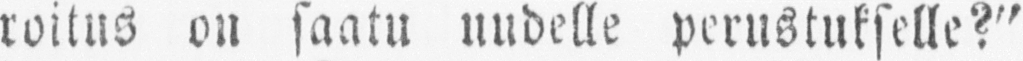roitus on saatu uudelle perustukselle?"
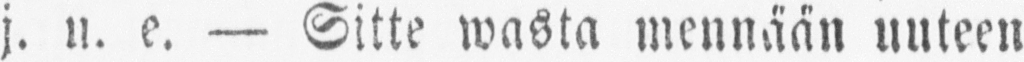j. n. e. — Sitte wasta mennään uuteen
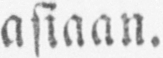asiaan.
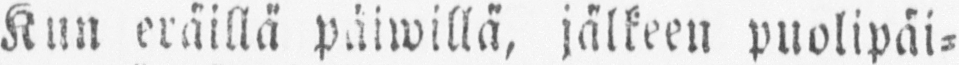Kun eräillä päiwillä, jälkeen puolipäi-
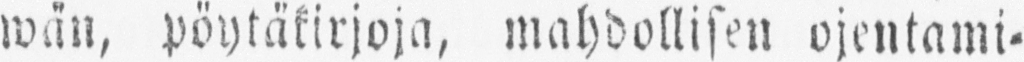wän, pöytäkirjoja, mahdollisen ojentami-
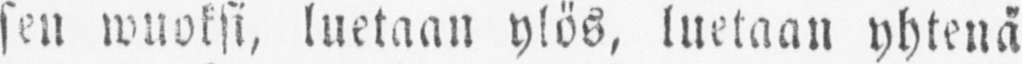sen wuoksi, luetaan ylös, luetaan yhtenä
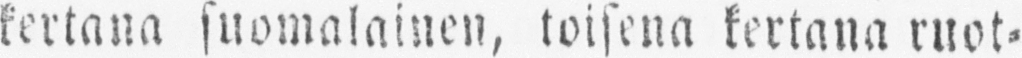kertana suomalainen, toisena kertana ruot-
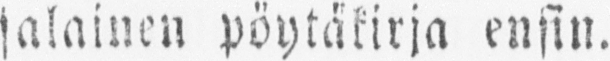salainen pöytäkirja ensin.
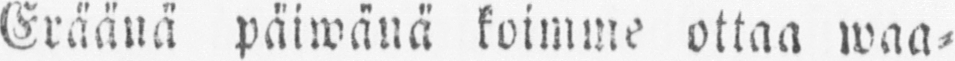Eräänä päiwänä koimme ottaa waa-
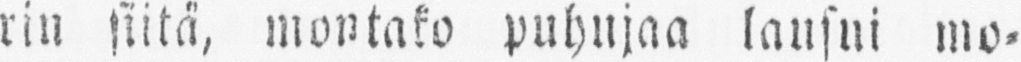rin siitä, montako puhujaa lausui mo-
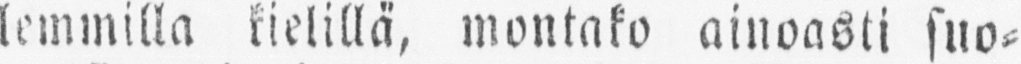lemmilla kielillä, montako ainoasti suo-
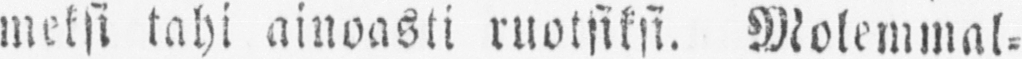meksi tahi ainoasti ruotsiksi. Molemmal-
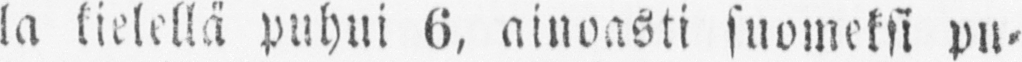la kielellä puhui 6, ainoasti suomeksi pu-
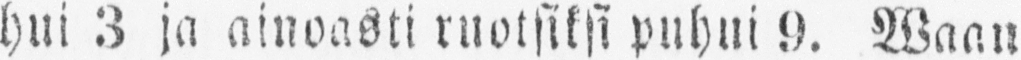hui 3 ja ainoasti ruotsiksi puhui 9. Waan
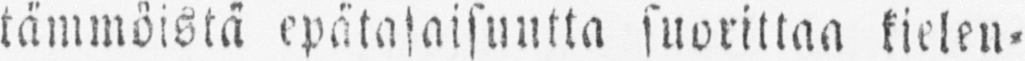tämmöistä epätasaisuutta suorittaa kielen-
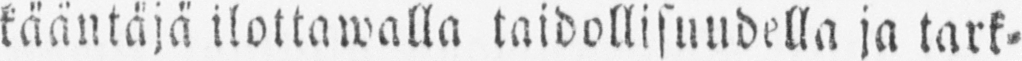kääntäjä ilottawalla taidollisuudella ja tark-
